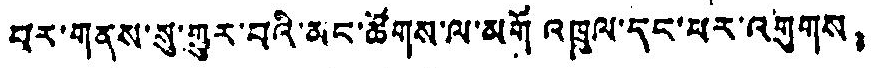པར་གནས་སུ་གྱུར་བའི་མང་ཚོགས་ལ་མགོ འཁྲུལ་དང་པར་འགུགས，
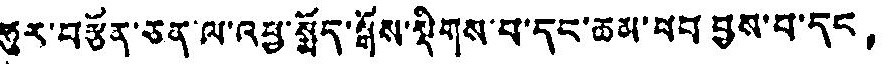ཧུར་བརྩོན་ཅན་ལ་འཕྱ་སྤྱོད་སྒོས་སྡིགས་པ་དང་ཆམ་ཕབ བྱས་པ་དང，
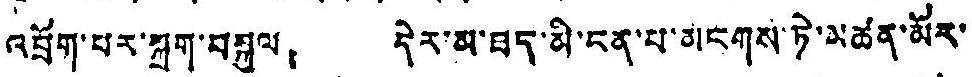འབྲོག་པར་སྐྲག་བསྐུལ， དེར་མ་ཟད་མི་ངན་པ་མངགས་ཏེ་མཚན་མོར་
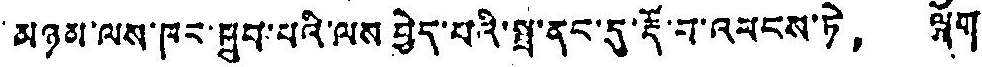མཉམ་ལས་ཁང་ཐུབ་པའི་ལས བྱེད་པའི་སྤ་ནང་དུ་རྡོ་བ་འཕངས་ཏེ， ལྐོག
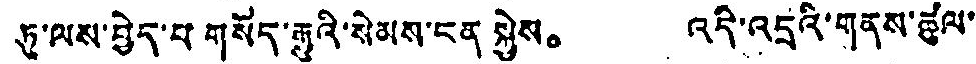ཏུ་ལས་བྱེད་པ གསོད་རྒྱུའི་སེམས་ངན སྐྱེས。 འདི་འདྲའི་གནས་ཚུལ་
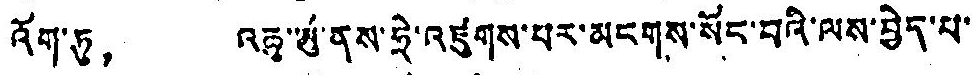འོག་ཏུ， འཆུ་ཡུ་ནས་ཧྲེ་འཛུགས་པར་མངགས་སོང་བའི་ལས་བྱེད་པ་
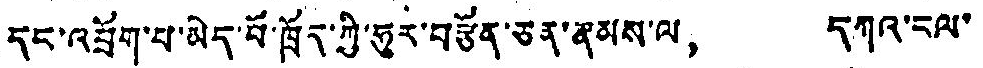དང་འབྲོག་པ་མེད་པོ་ཁྲོད་ཀྱི་ཧུར་བརྩོན་ཅན་རྣམས་ལ， དཀའ་ངལ་
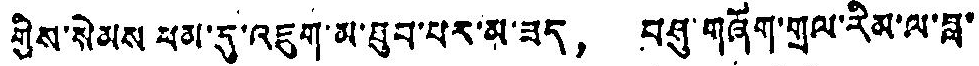གྱིས་སེམས ཕམ་དུ་འཇུག་མ་ཐུབ་པར་མ་ཟད， བཤུ་གཞོག་གྲལ་རིམ་ལ་བླ་
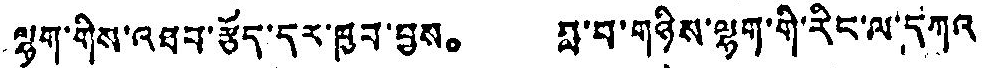ལྷག་གིས་འཐབ་རྩོད་དར་ཁྱབ་བྱས。 ཟླ་བ་གཉིས་ལྷག་གི་རིང་ལ་དཀའ་
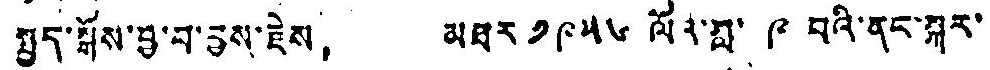སྤྱད་སྒོས་བྱ་བ་བྱས་རྗེས， མཐར ༡༩༥༦ ལོའ་བླ་ ༩ བའི་ནང་སྐར་
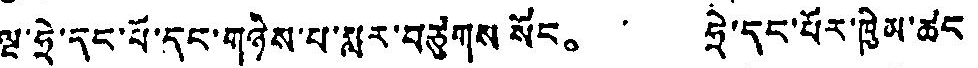ལྔ་ཧྲེ་དང་པོ་དང་གཉིས་པ་སླར་བཙུགས སོང。 ཧྲེ་དང་པོར་ཁྱིམ་ཚང་
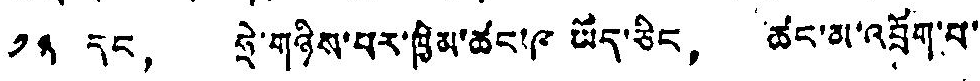༡༢ དང， ཧྲེ་གཉིས་པར་ཁྱིམ་ཚང་༩ ཡོད་ཅིང， ཚང་མ་འབྲོག་པ་
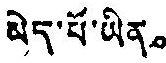མེད་པོ་ཡིན。
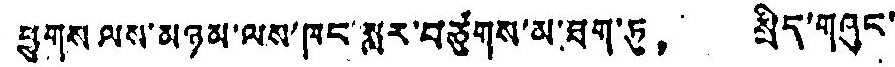ཕྱུགས ལས་མཉམ་ལས་ཁང་སླར་བཙུགས་མ་ཐག་ཏུ， སྲིད་གཞུང་
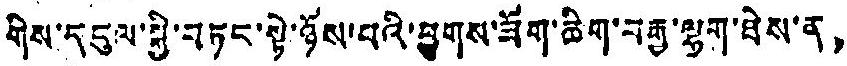གིས་དངུལ་སྤྱི་བཏང་སྟེ་ཉོས་པའི་ཕྱུགས་ཟོག་ཆིག་བརྒྱ་ལྷག་ཐེས་ན，
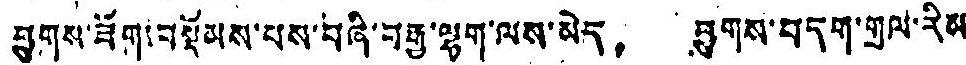ཕྱུགས་ཟོག་བསྡོམས་པས་བཞི་བརྒྱ་ལྷག་ལས་མེད， ཕྱུགས་བདག་གྲལ་རིམ་
